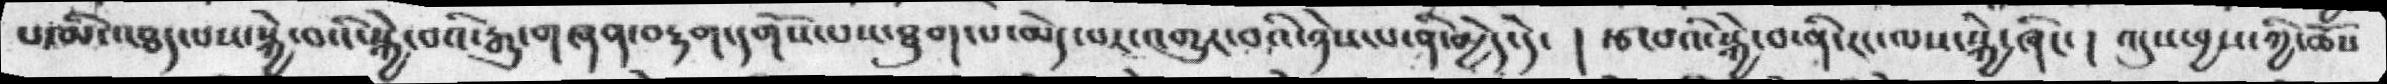པ་མི་འཐད་པས་སྐྱེ་བའི་རྒྱུ་གཞན་བརྟག་དགོས་པས་ཐུག་པ་མེད་པར་འགྱུར་བའི་ཉེས་པ་ནི་མྱེད་དེ་  །  རྩ་བའི་སྐྱེ་བ་ནི་རང་ལས་སྐྱེ་ཞིང་  །  འདུས་བྱས་ཀྱི་ཆོས་
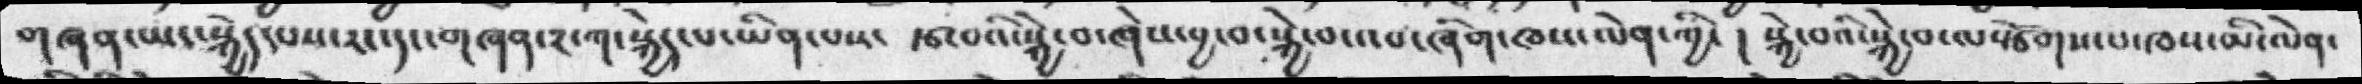གཞན་ཡང་སྐྱེད་པས་རང་དང་གཞན་༢་ག་སྐྱེད་པ་ཡིན་པས་  རྩ་བའི་སྐྱེ་བ་ཞེས་བྱ་བ་སྐྱེ་བ་འབ་ཞིག་ཁས་ལེན་ཀྱི་  ། སྐྱེ་བའི་སྐྱེ་བ་ལསྩོགས་པ་ཁས་མི་ལེན་
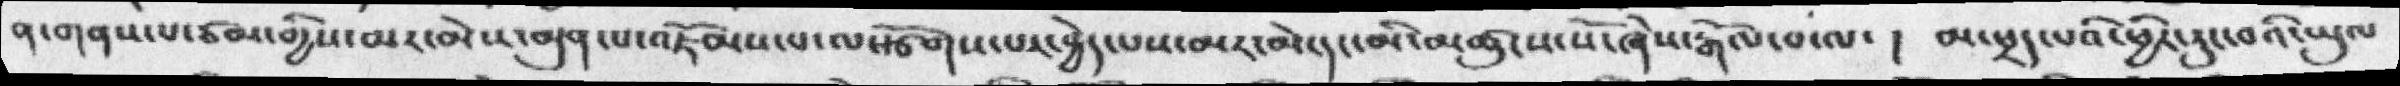ན་གནས་པ་ཙམ་གྱིས་མར་མེས་མུན་པ་འཇོམས་པ་ལསྩོགས་པར་བྱེད་པས་མར་མེ་དང་མི་མཚུངས་སོ་ཞེས་རྒོལ་བ་ལ་    །  མ་ཕྲད་པའི་ཕྱིར་རུང་བའི་ཡུལ་
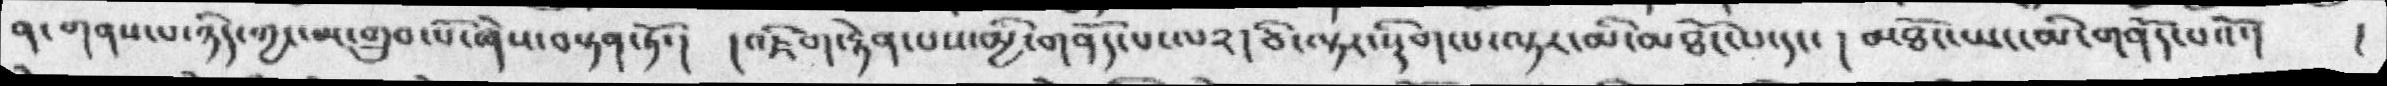ན་གནས་པ་ཉིད་ཀྱང་མ་གྲུབ་པོ་ཞེས་བསྟན་ཏོ་།     །འཇིག་རྟེན་པས་མྱི་གནོད་པ་ལ༢།  ཅི་ལྟར་སྡིག་པ་ལྟར་མི་མཐོང་པ་དང་  །མཐོང་ཡང་མི་གནོད་པའོ་།    །
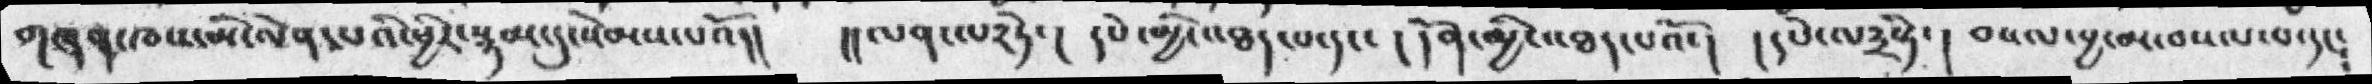གཞན་ཁས་མི་ལེན་པའི་ཕྱིར་སྙམ་དུ་སེམས་པའོ།།   །།ལན་ལ༢ཏེ་།   དཔེ་མྱི་འཐད་པ་དང་   ། དོན་མྱི་འཐད་པའོ་།  །དཔེ་ལ༣སྟེ་།   བསལ་བྱ་མ་བསལ་པ་དང་༴
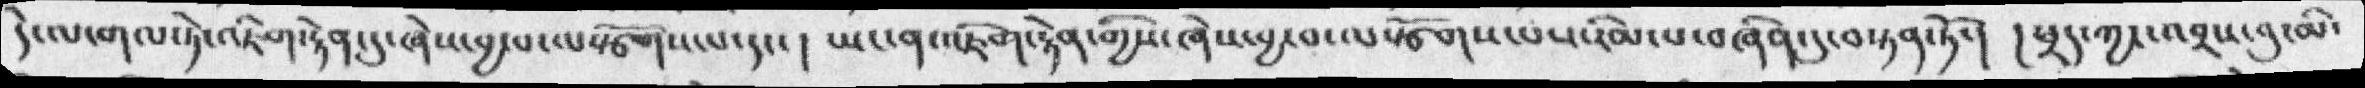དེ་ལ་གལ་ཏེ་འཇིག་རྟེན་དུ་ཞེས་བྱ་བ་ལསྩོགས་པ་དང་ ། ཡང་ན་འཇོག་རྟེན་གྱིས་ཞེས་བྱ་བ་ལསྩོགས་པས་རིམ་པ་བཞིན་དུ་བསྟན་ཏོ་།   །ཕྲད་ཀྱང་འབྲས་བུ་མི་
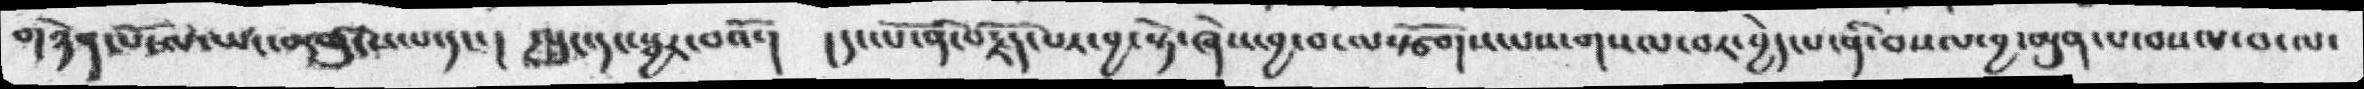གཉེན་པོ་ལ་ཡང་མཚུངས་པ་དང་།   ལུང་དང་སྦྱར་པའོ་།   །དང་པོ་ནི་བརྗོད་པར་བྱ་སྟེ་ཞེས་བྱ་བ་ལསྩོགས་པས་གསལ་བར་བྱེད་པ་ནི་བསལ་བྱ་མུན་པ་བསལ་བ་ལ་
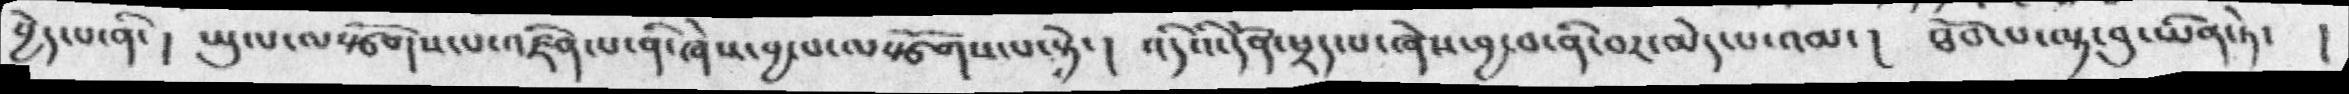བྱེད་པ་ནི་ །  ཡུལ་ལསྩོགས་པ་འཛིན་པ་ནི་ཞེས་བྱ་བ་ལསྩོགས་པ་སྟེ་ །   འདིའི་དོན་ཕྲད་པ་ཞེས་བྱ་བ་ནི་བར་མེད་པ་འམ་ །   ཐོབ་པ་ལྟ་བུ་ཡིན་ཏེ་  །
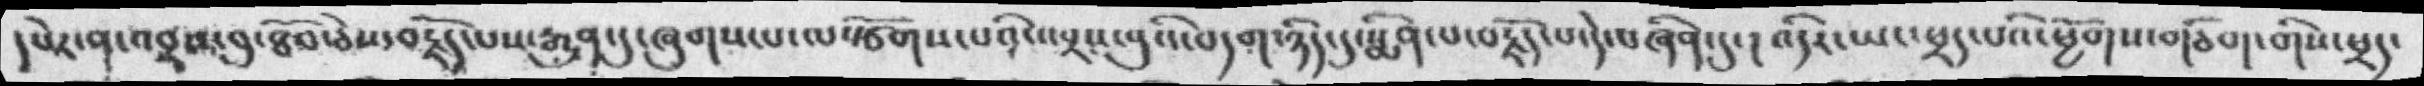དཔེར་ན་འབྲས་བུ་ཐོབ་ཅེས་བརྗོད་པས་རྒྱུན་དུ་ཞུགས་པ་ལསྩོགས་པའི་འབྲས་བའི་བདག་ཉིད་དུ་སྨིན་པ་བརྗོད་པ་དེ་བཞིན་དུ་། འདིར་ཡང་ཕྲད་པའི་ཕྱོགས་གཅིག་གིས་ཕྲད་
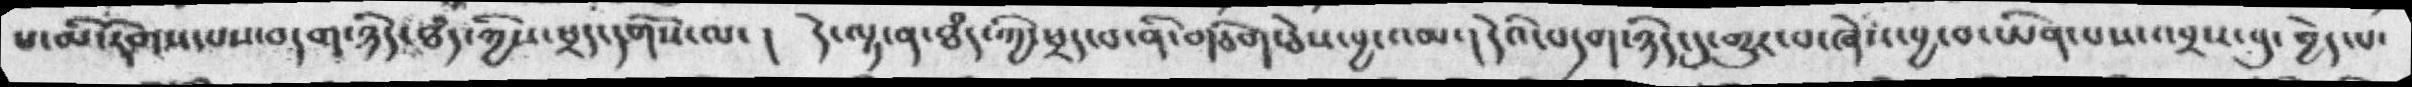པ་མི་རིགས་པས་བདག་ཉིད་ཐདཾ་ཀྱིས་ཕྲད་དགོས་ལ་།   དེ་ལྟ་ན་ཐདཾ་ཀྱི་ཕྲད་པ་ནི་གཅིག་ཅེས་བྱ་འམ་། དེའི་བདག་ཉིད་དུ་གྱུར་པ་ཞེས་བྱ་བ་ཡིན་པས་འབྲས་བུ་བྱེད་པ་
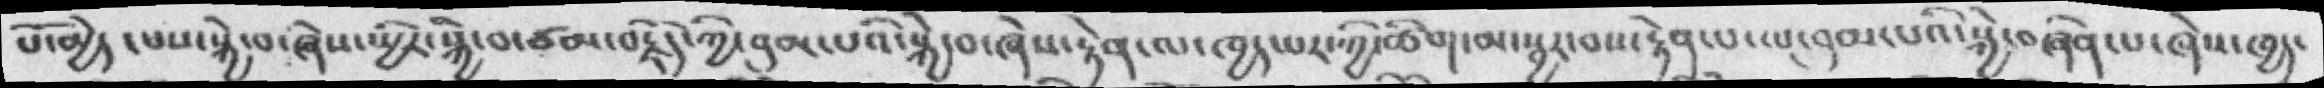པོ་མྱེད་པས་སྐྱེ་བ་ཞེས་ཡྱིར་སྐྱེ་བ་ཙམ་བརྗོད་ཀྱི་བུམ་པའི་སྐྱེ་བ་ཞེས་རྟེན་ལ་ཁྱད་པར་ཀྱི་ཚིག་མ་སྦྱར་བས་རྟེན་པ་ལ་བུམ་པའི་སྐྱེ་བཞིན་པ་ཞེས་པ་ཁྱད་
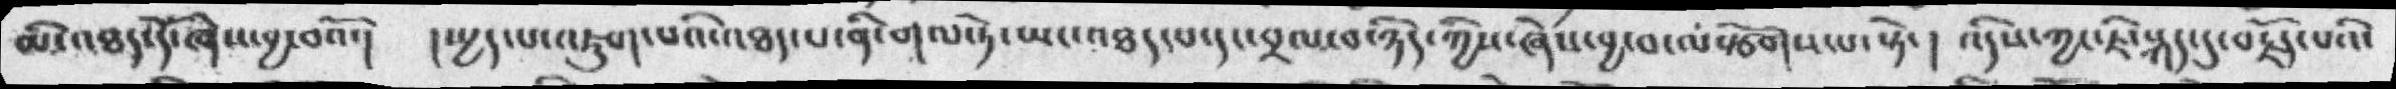མི་འཐད་དོ་ཞེས་བྱ་བའོ་།   །སྤྱད་པ་འཇུག་པའི་འཐད་པ་ནི་གལ་ཏེ་ཡང་འཐད་པ་དང་བྲལ་བ་ཉིད་ཀྱིས་ཞེས་བྱ་བ་ལསྩོགས་པ་སྟེ་།    འདིས་ཀྱང་ཇི་སྐད་དུ་བརྗོད་པའི་
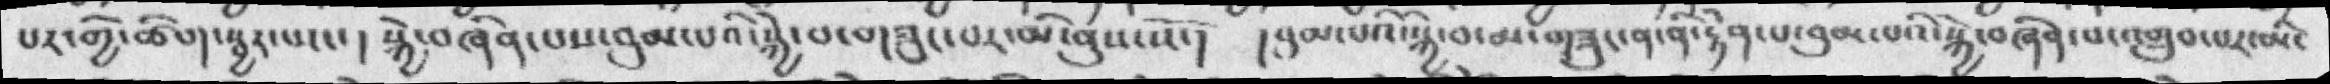པར་གྱི་ཚིག་སྦྱར་ཡང་།  སྐྱེ་བཞིན་པས་བུམ་པའི་སྐྱེ་བ་གཟུང་བར་མི་ནུས་སོ་།    །བུམ་པའི་སྐྱེ་བ་མ་གཟུང་ན་ནི་རྟེན་པ་བུམ་པའི་སྐྱེ་བཞིན་པ་འགྲུབ་པར་མི་
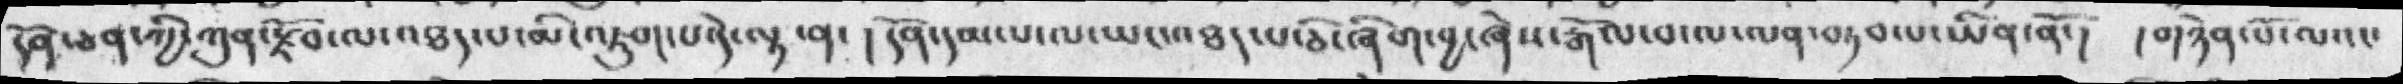དོན་ཅན་ཀྱི་ཀུན་སྫོབ་ལ་འཐད་པ་མི་འཇུག་པ་དེ་ལྟ་ན་ ། དོན་དམ་པ་ལ་ཡང་འཐད་པ་ཅི་ཞིག་བྱ་ཞེས་རྒོལ་བ་ལ་ལན་བཏབ་པ་ཡིན་ནོ་།   །གཉེན་པོ་ལའང་
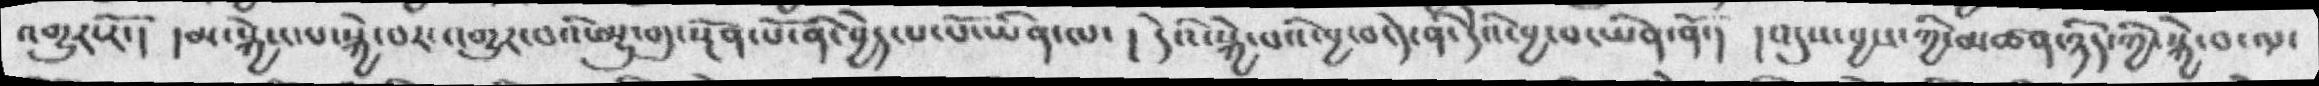འགྱུར་རོ་།  །མ་སྐྱེས་པ་སྐྱེ་པར་འགྱུར་བའི་མྱུ་གུ་སྔོན་པོ་ནི་བྱེད་པ་པོ་ཡིན་ལ་ ། དེའི་སྐྱེ་པའི་བྱ་བ་དེ་ནི་དེའི་བྱ་བ་ཡིན་ནོ་།  །འདུས་བྱས་ཀྱི་མཚན་ཉིད་ཀྱི་སྐྱེ་བ་ལ་
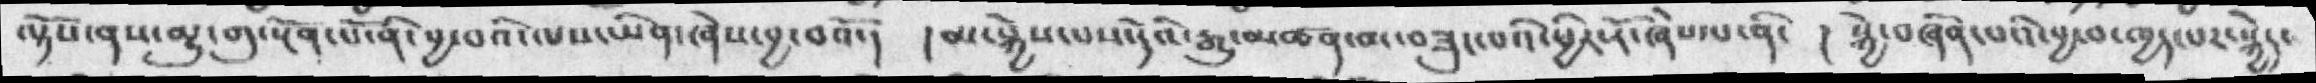ལྟོས་ནས་མྱུ་གུ་སྔོན་པོ་ནི་བྱ་བའི་ལས་ཡིན་ཞེས་བྱ་བའོ་།    །མ་སྐྱེས་པས་དེའི་རྒྱུ་མཚན་མ་བཟུང་བའི་ཕྱིར་རོ་ཞེས་པ་ནི་    ། སྐྱེ་བཞིན་པའི་བྱ་བ་ཁྱད་པར་སྐྱེད་
